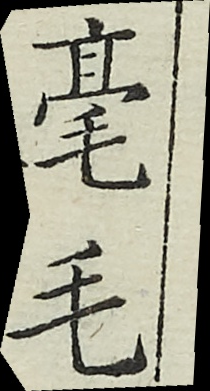毫毛
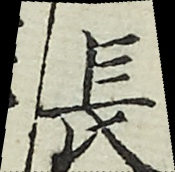長
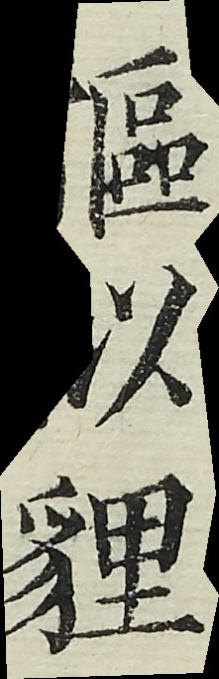貙似貍
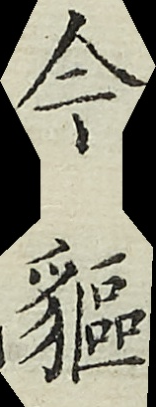今貙
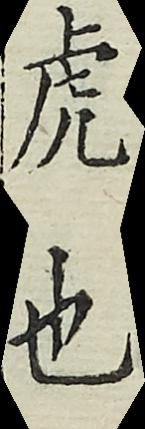虎也
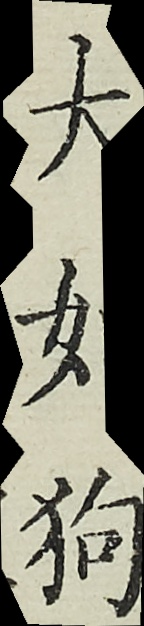大如狗
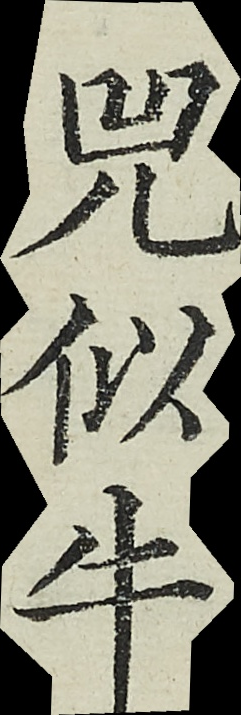兕似牛
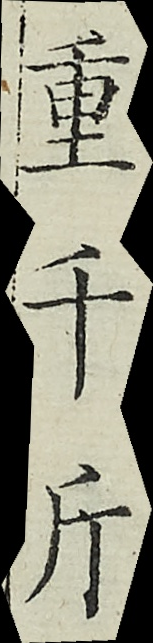重千斤
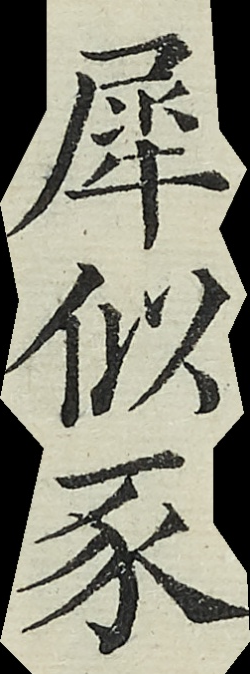犀似豕
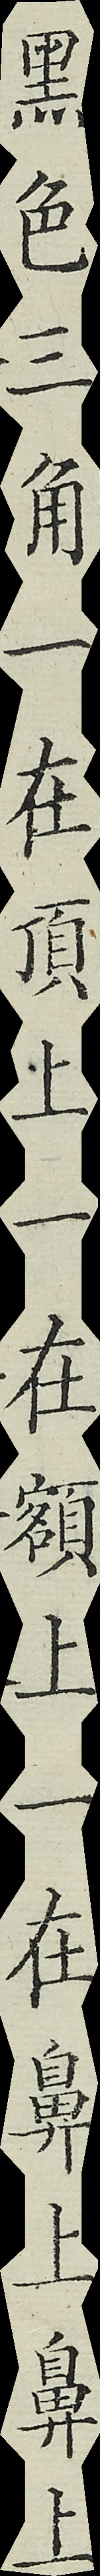黑色三角一在頂上一在額上一在鼻上鼻上
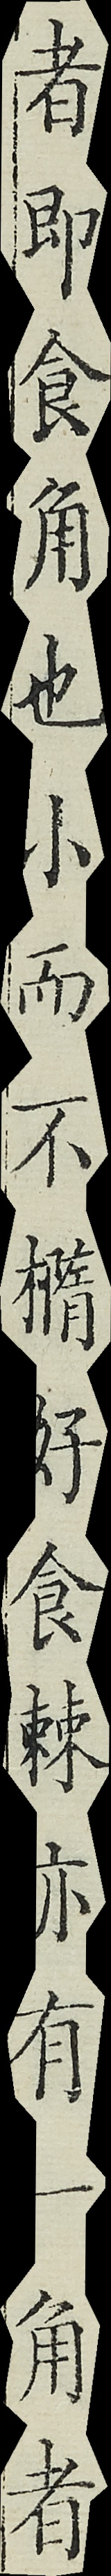者即食角也小而不橢好食棘亦有一角者
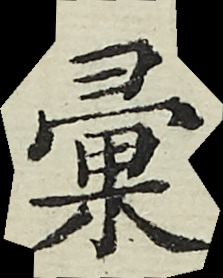彙
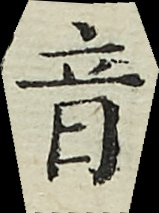音
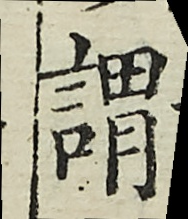謂
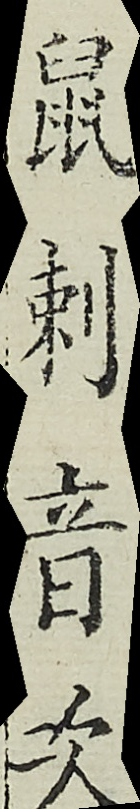鼠刺音次
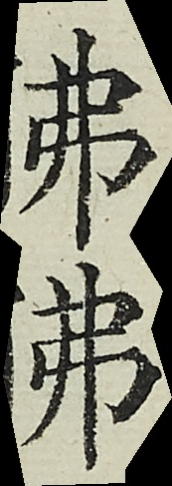狒狒
